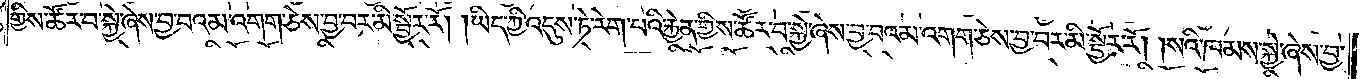གྱིས་ཚོར་བ་སྐྱེ་ཞེས་བྱ་བའམ་འགག་ཅེས་བྱ་བར་མི་སྦྱོར་རོ། །ཡིད་ཀྱི་འདུས་ཏེ་རེག་པའི་རྐྱེན་གྱིས་ཚོར་བ་སྐྱེ་ཞེས་བྱ་བའམ་འགག་ཅེས་བྱ་བར་མི་སྦྱོར་རོ། །སའི་ཁམས་སྐྱེ་ཞེས་བྱ་
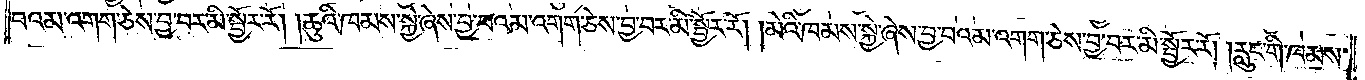བའམ་འགག་ཅེས་བྱ་བར་མི་སྦྱོར་རོ། །ཆུའི་ཁམས་སྐྱེ་ཞེས་བྱ་བའམ་འགག་ཅེས་བྱ་བར་མི་སྦྱོར་རོ། །མེའི་ཁམས་སྐྱེ་ཞེས་བྱ་བའམ་འགག་ཅེས་བྱ་བར་མི་སྦྱོར་རོ། །རླུང་གི་ཁམས་
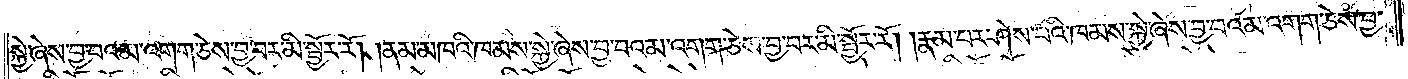སྐྱེ་ཞེས་བྱ་བའམ་འགག་ཅེས་བྱ་བར་མི་སྦྱོར་རོ། །ནམ་མཁའི་ཁམས་སྐྱེ་ཞེས་བྱ་བའམ་འགག་ཅེས་བྱ་བར་མི་སྦྱོར་རོ། །རྣམ་པར་ཤེས་པའི་ཁམས་སྐྱེ་ཞེས་བྱ་བའམ་འགག་ཅེས་བྱ་
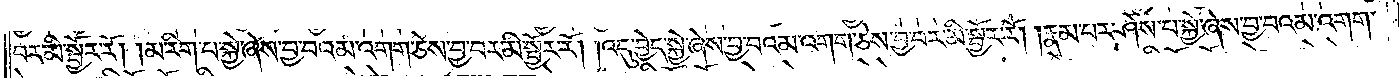བར་མི་སྦྱོར་རོ། །མ་རིག་པ་སྐྱེ་ཞེས་བྱ་བའམ་འགག་ཅེས་བྱ་བར་མི་སྦྱོར་རོ། །འདུ་བྱེད་སྐྱེ་ཞེས་བྱ་བའམ་འགག་ཅེས་བྱ་བར་མི་སྦྱོར་རོ། །རྣམ་པར་ཤེས་པ་སྐྱེ་ཞེས་བྱ་བའམ་འགག་
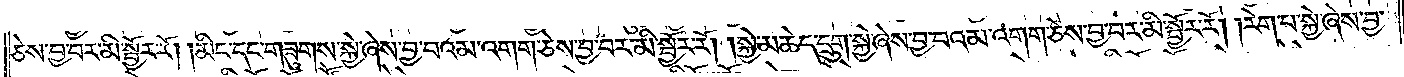ཅེས་བྱ་བར་མི་སྦྱོར་རོ། །མིང་དང་གཟུགས་སྐྱེ་ཞེས་བྱ་བའམ་འགག་ཅེས་བྱ་བར་མི་སྦྱོར་རོ། །སྐྱེ་མཆེད་དྲུག་སྐྱེ་ཞེས་བྱ་བའམ་འགག་ཅེས་བྱ་བར་མི་སྦྱོར་རོ། །རེག་པ་སྐྱེ་ཞེས་བྱ་
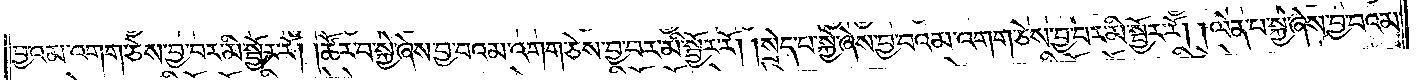བྱ་འམ་འགག་ཅེས་བྱ་བར་མི་སྦྱོར་རོ། །ཚོར་བ་སྐྱེ་ཞེས་བྱ་བའམ་འགག་ཅེས་བྱ་བར་མི་སྦྱོར་རོ། །སྲེད་པ་སྐྱེ་ཞེས་བྱ་བའམ་འགག་ཅེས་བྱ་བར་མི་སྦྱོར་རོ། །ལེན་པ་སྐྱེ་ཞེས་བྱ་བའམ་
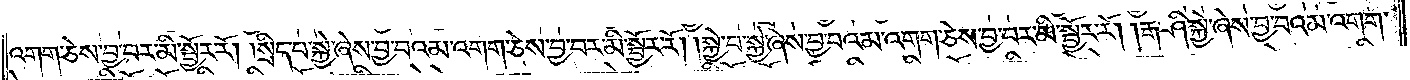འགག་ཅེས་བྱ་བར་མི་སྦྱོར་རོ། །སྲིད་པ་སྐྱེ་ཞེས་བྱ་བའམ་འགག་ཅེས་བྱ་བར་མི་སྦྱོར་རོ། །སྐྱེ་བ་སྐྱེ་ཞེས་བྱ་བའམ་འགག་ཅེས་བྱ་བར་མི་སྦྱོར་རོ། །རྒ་ཤི་སྐྱེ་ཞེས་བྱ་བའམ་འགག་
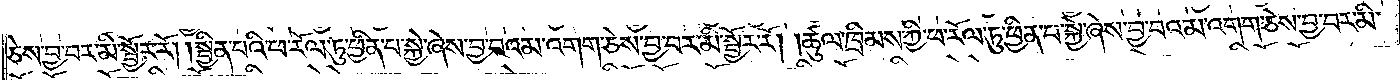ཅེས་བྱ་བར་མི་སྦྱོར་རོ། །སྦྱིན་པའི་ཕ་རོལ་ཏུ་ཕྱིན་པ་སྐྱེ་ཞེས་བྱ་བའམ་འགག་ཅེས་བྱ་བར་མི་སྦྱོར་རོ། །ཚུལ་ཁྲིམས་ཀྱི་ཕ་རོལ་ཏུ་ཕྱིན་པ་སྐྱེ་ཞེས་བྱ་བའམ་འགག་ཅེས་བྱ་བར་མི་
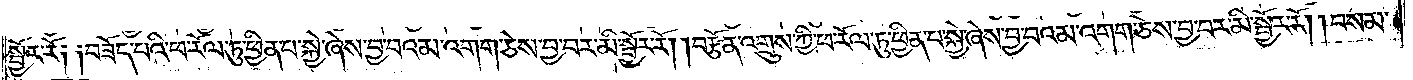སྦྱོར་རོ༑ ༑བཟོད་པའི་ཕ་རོལ་ཏུ་ཕྱིན་པ་སྐྱེ་ཞེས་བྱ་བའམ་འགག་ཅེས་བྱ་བར་མི་སྦྱོར་རོ། །བརྩོན་འགྲུས་ཀྱི་ཕ་རོལ་ཏུ་ཕྱིན་པ་སྐྱེ་ཞེས་བྱ་བའམ་འགག་ཅེས་བྱ་བར་མི་སྦྱོར་རོ། །བསམ་
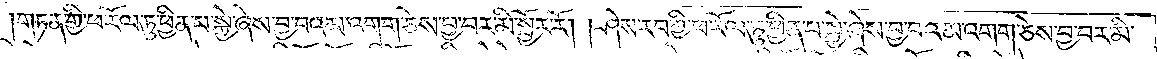གཏན་གྱི་ཕ་རོལ་ཏུ་ཕྱིན་པ་སྐྱེ་ཞེས་བྱ་བའམ་འགག་ཅེས་བྱ་བར་མི་སྦྱོར་རོ། །ཤེས་རབ་ཀྱི་ཕ་རོལ་ཏུ་ཕྱིན་པ་སྐྱེ་ཞེས་བྱ་བའམ་འགག་ཅེས་བྱ་བར་མི་
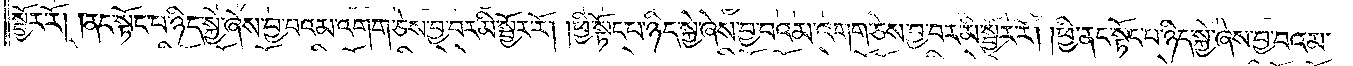སྦྱོར་རོ། །ནང་སྟོང་པ་ཉིད་སྐྱེ་ཞེས་བྱ་བའམ་འགག་ཅེས་བྱ་བར་མི་སྦྱོར་རོ། །ཕྱི་སྟོང་པ་ཉིད་སྐྱེ་ཞེས་བྱ་བའམ་འགག་ཅེས་བྱ་བར་མི་སྦྱོར་རོ། །ཕྱི་ནང་སྟོང་པ་ཉིད་སྐྱེ་ཞེས་བྱ་བའམ་
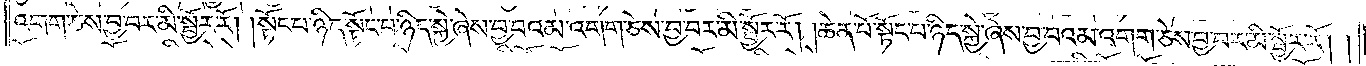འགག་ཅེས་བྱ་བར་མི་སྦྱོར་རོ། །སྟོང་པ་ཉིད་སྟོང་པ་ཉིད་སྐྱེ་ཞེས་བྱ་བའམ་འགག་ཅེས་བྱ་བར་མི་སྦྱོར་རོ། །ཆེན་པོ་སྟོང་པ་ཉིད་སྐྱེ་ཞེས་བྱ་བའམ་འགག་ཅེས་བྱ་བར་མི་སྦྱོར་རོ། །
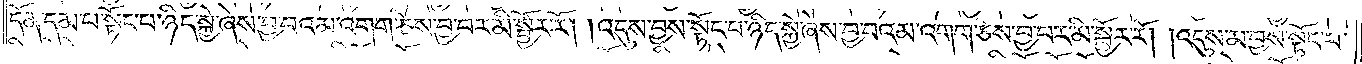དོན་དམ་པ་སྟོང་པ་ཉིད་སྐྱེ་ཞེས་བྱ་བའམ་འགག་ཅེས་བྱ་བར་མི་སྦྱོར་རོ། །འདུས་བྱས་སྟོང་པ་ཉིད་སྐྱེ་ཞེས་བྱ་བའམ་འགག་ཅེས་བྱ་བར་མི་སྦྱོར་རོ། །འདུས་མ་བྱས་སྟོང་པ་
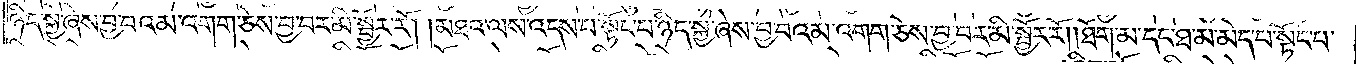ཉིད་སྐྱེ་ཞེས་བྱ་བའམ་འགག་ཅེས་བྱ་བར་མི་སྦྱོར་རོ། །མཐའ་ལས་འདས་པ་སྟོང་པ་ཉིད་སྐྱེ་ཞེས་བྱ་བའམ་འགག་ཅེས་བྱ་བར་མི་སྦྱོར་རོ། །ཐོག་མ་དང་ཐ་མ་མེད་པ་སྟོང་པ་
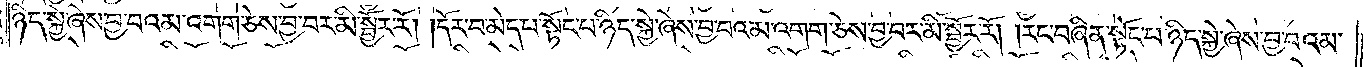ཉིད་སྐྱེ་ཞེས་བྱ་བའམ་འགག་ཅེས་བྱ་བར་མི་སྦྱོར་རོ། །དོར་བ་མེད་པ་སྟོང་པ་ཉིད་སྐྱེ་ཞེས་བྱ་བའམ་འགག་ཅེས་བྱ་བར་མི་སྦྱོར་རོ། །རང་བཞིན་སྟོང་པ་ཉིད་སྐྱེ་ཞེས་བྱ་བའམ་
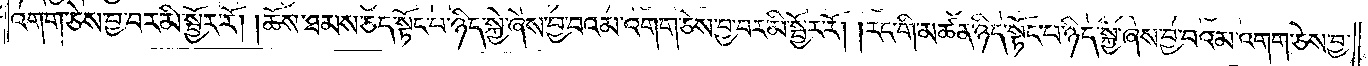འགག་ཅེས་བྱ་བར་མི་སྦྱོར་རོ། །ཆོས་ཐམས་ཅད་སྟོང་པ་ཉིད་སྐྱེ་ཞེས་བྱ་བའམ་འགག་ཅེས་བྱ་བར་མི་སྦྱོར་རོ། །རང་གི་མཚན་ཉིད་སྟོང་པ་ཉིད་སྐྱེ་ཞེས་བྱ་བའམ་འགག་ཅེས་བྱ་
